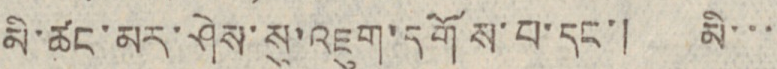མི་ཚང་མར་ཤེས་སུ་འཇུག་དགོས་པ་དང་། མི་་་
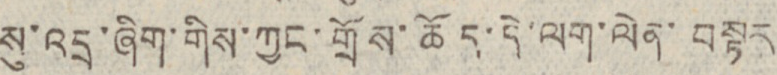སུ་འདྲ་ཞིག་གིས་ཀྱང་གྲོས་ཆོད་དེ་ལག་ལེན་བསྟར
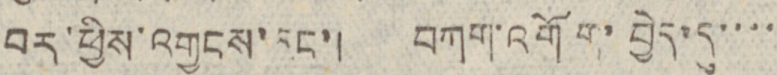བར་ཕྱིས་འགྱངས་དང་། བཀག་འགོག་བྱེད་དུ་་་་
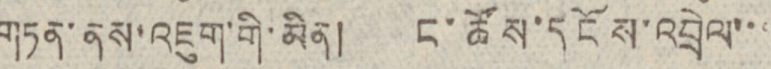གཏན་ནས་འཇུག་གི་མིན། ང་ཚོས་དངོས་འབྲེལ་་་
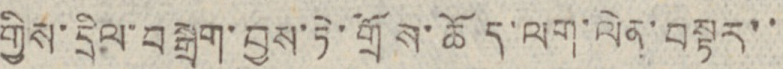གྱིས་དྲིལ་བསྒྲག་བྱས་ཏེ་གྲོས་ཆོད་ལག་ལེན་བསྟར་་
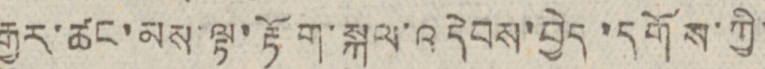རྒྱུར་ཚང་མས་ལྟ་རྟོག་སྐུལ་འདེབས་བྱེད་དགོས་ཀྱི་
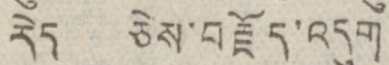རེད ཅེས་བརྗོད་འདུག
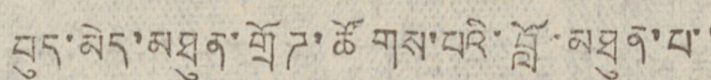བུད་མེད་མཐུན་གྲོཊ་ཚོགས་པའི་བློ་མཐུན་པ་་
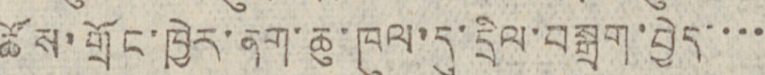ཚོས་གྲོང་ཁྱེར་ནག་ཆུ་ཁུལ་དུ་དྲིལ་བསྒྲག་བྱེད་་་་
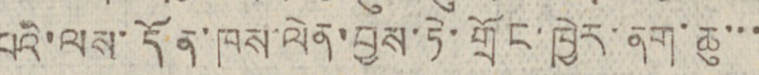པའི་ལས་དོན་ཁས་ལེན་བྱས་ཏེ་གྲོང་ཁྱེར་ནག་ཆུ་་་
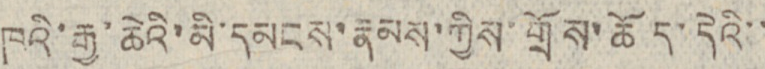ཁའི་རྒྱ་ཆེའི་མི་དམངས་རྣམས་ཀྱིས་གྲོས་ཆོད་དེའི་་
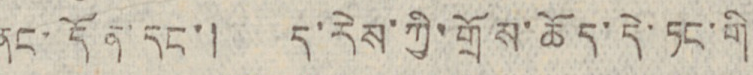ནང་དོན་དང་། ད་རེས་ཀྱི་གྲོས་ཆོད་དེ་ཏང་གི་
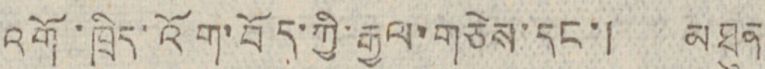འགོ་ཁྲིད་འོག་བོད་ཀྱི་རྒྱལ་གཅེས་དང་། མཐུན་
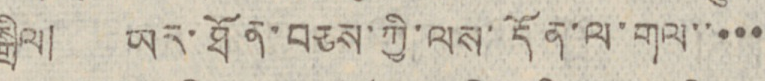སྒྲིལ། ཡར་ཐོན་བཅས་ཀྱི་ལས་དོན་ལ་གལ་་་་་
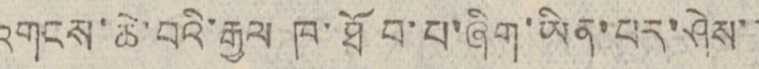འགངས་ཆེ་བའི་རྒྱལ ཁ་ཐོབ་པ་ཞིག་ཡིན་པར་ཤེས་་
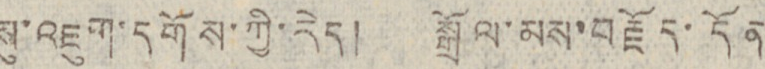སུ་འཇུག་དགོས་ཀྱི་རེད། སྒྲོལ་མས་བརྗོད་དོན
